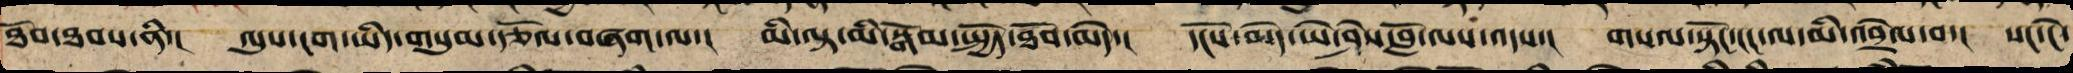ཐོབ་ཐབས་ནི་། ལུས་ངག་ཡིད་གསུམ་རྩོལ་བཞག་ལ་། མི་ལྟ་མི་སྒོམ་སྤྱོད་ཐོབ་མེད་། དངོས་མེད་ཡེ་ཤེས་བློ་ལས་འདས་། གསལ་སྟོང་ངང་ལ་མི་འབྲེལ་བ་། སང་ངེ་
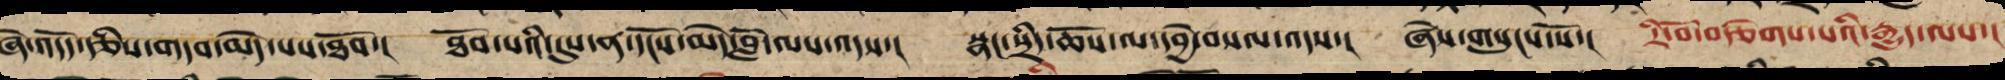ཞེ་འདོད་རྩིས་གདབ་མེད་པས་ཐོབ་། ཐོབ་པའི་དུས་ན་དངོས་མེད་བློ་ལས་འདས་། སྣང་སྲིད་ཆོས་ལ་དབྱེ་བསལ་འདས་། ཞེས་གསུངས་སོ་། རི་བོ་བརྩེགས་པའི་རྒྱུད་ལས་།
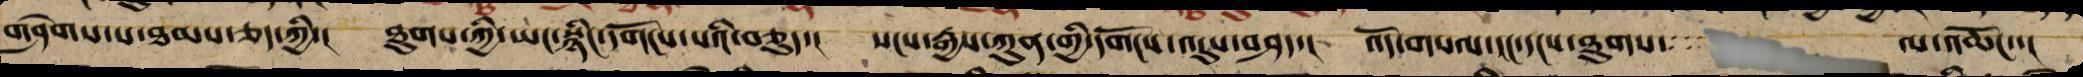གཤེགས་པ་ཐམས་ཅད་ཀྱི་། ཐུགས་ཀྱི་ཡང་སྙིང་དགོངས་པའི་བཅུད་། སངས་རྒྱས་ཀུན་གྱི་དགོངས་འདུས་བཤད་། འོད་གསལ་ངང་དངས་ཐུགས་ ལ་འཆོང་་།
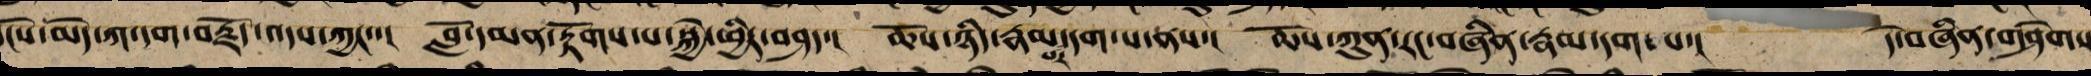ངོས་མེད་ཀ་དག་བརྗོད་འདས་ཀྱང་་། བློ་དམན་རྟོགས་པ་སྐྱེ་ཕྱིར་བཤད་། ཆོས་ཉིད་རྣམ་པར་དག་པས་ན་། ཆོས་ཀུན་རང་བཞིན་རྣམ་དག་པ་། དེ་བཞིན་གཤེགས
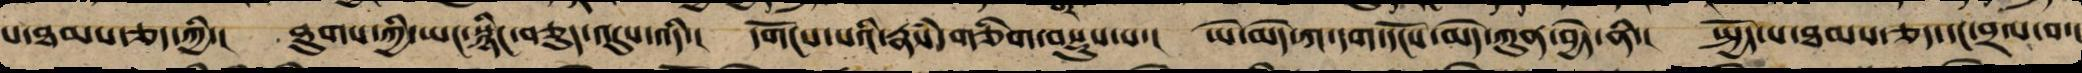པ་ཐམས་ཅད་ཀྱི་། ཐུགས་ཀྱི་ཡང་སྙིང་བཅུད་འདུས་འདི་། དགོངས་པའི་རྣཾས་གཅིག་བསྡུས་པ་། ཡེ་མེད་ཀ་དག་དངོས་མེད་ཀུན་བྱེད་ནི་། སྤྱོད་པ་ཐམས་ཅད་དང་བྲལ་བ་།
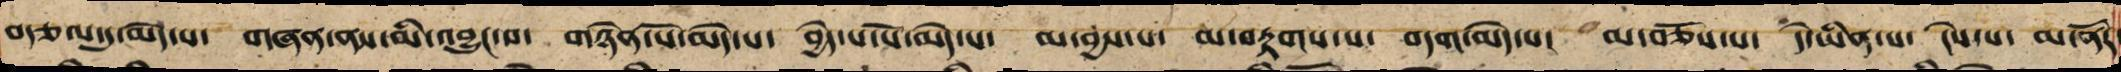བརྩལ་དུ་མེད་པ་ གཞན་ནས་མི་འབྱུང་བ་ གཉེན་པོ་མེད་པ་ བྱེད་པ་པོ་མེད་པ་ མ་བྱས་པ་ མ་བརྟགས་པ་ བདག་མེད་པ་ མ་བཅོས་པ་ དེ་ཡིན་པ་ ངེས་པ་ མ་ནོར
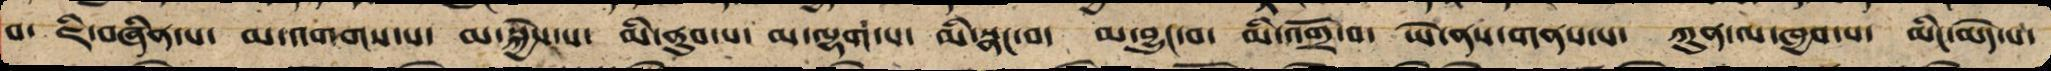བ་ ཇི་བཞིན་པ་་ མ་འགགས་པ་ མ་སྐྱེས་པ་ མི་ནུབ་པ་ མ་ལྷགས་པ་ མི་སྣང་བ་ མ་བྱུང་བ་ མི་འགྲོ་བ་ ཡེ་ནས་གནས་པ་ ཀུན་ལ་ཁྱབ་པ་ མིང་མེད་པ་
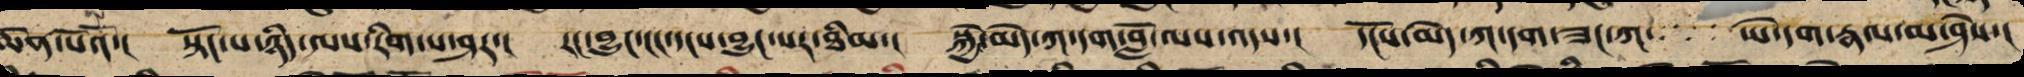ཆེན་པོའོ་། སྟོང་པ་ཉིད་ལས་རིག་པར་ཤར་། རང་བྱུང་ངང་དངས་བྱུང་སར་ཐིམ་། སྐྱེ་མེད་ཀ་དག་བློ་ལས་འདས་། དངོས་མེད་ཀ་དག་ཟང་ཀ་ ཡེ་དག་རྣལ་མ་ཤེས་།
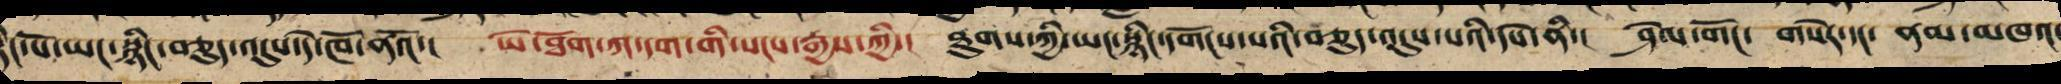སྙིང་པོ་ཡང་སྙིང་བཅུད་འདུས་དེ་ཁོ་ནའོ་། ཡེ་ཐོག་ཀ་དག་གི་སངས་རྒྱས་ཀྱི་ཐུགས་ཀྱི་ཡང་སྙིང་དགོངས་པའི་བཅུད་བསྡུས་པའི་དཔེ་ནི་། ཤེལ་གོང་ གསེར་དང་ ནམ་མཁའ་
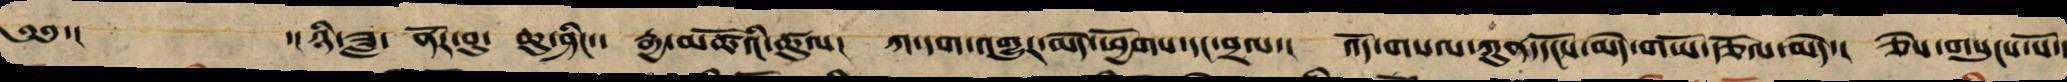༄༅་། ་།ཉི་ཟླ་ ནོར་བུ་ ཆུ་ཤིང་་ རྒྱ་མཚོའི་ཚུལ། ཀ་དག་འགྱུར་མེད་ཕྱོགས་དང་བྲལ་། འོད་གསལ་ཀུན་དངོས་མེད་གཡོ་རྩོལ་མེད་། ཅེས་གསུངས་སོ་།
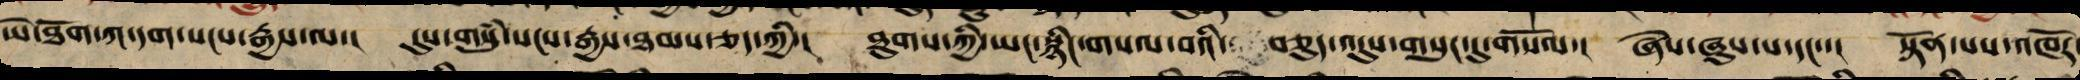ཡེ་ཐོག་ཀ་དག་སངས་རྒྱས་ལ་། དུས་གསུཾ་སངས་རྒྱས་ཐམས་ཅད་ཀྱི་། ཐུགས་ཀྱི་ཡང་སྙིང་གསལ་བའི་ བཅུད་འདུས་གསུང་དུ་གསོལ་། ཞེས་ཞུས་པ་དང་་། སྟོན་པས་འཁོར་
